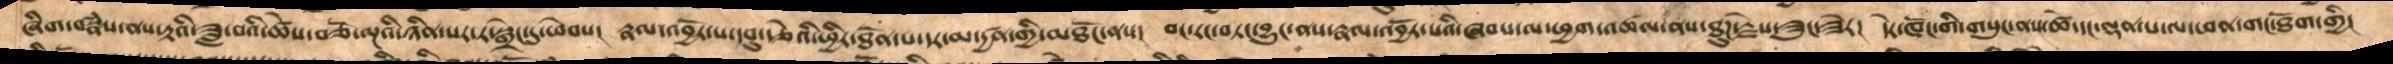ཞིག་བསྣཾས་ནས་རྟའི་ཟླ་བའི་ཚེས་བཅོ་ལྔའི་ཉིན་པར་ར་སྒྲེང་དུ་ཕེབས།  རྣལ་འབྱོར་པ་དབུ་རྩེའི་ཕྱིར་ཐོན་པ་དར་མ་དྱཚན་གྱི་མཐོང་ནས།  བང་རང་བཏང་བྱུང་ནས་རྣལ་འབྱོར་པའི་ཞབས་ལ་ཕྱག་འཚལ་ནས་ཐུཌ་རྗེས་ཟུང་ཟེར།  དེར་ཁོང་གི་གསུང་ནས་ཚེ་དང་ལྡན་པ་ལ་ཕན་གང་ཐོག་གྱི།
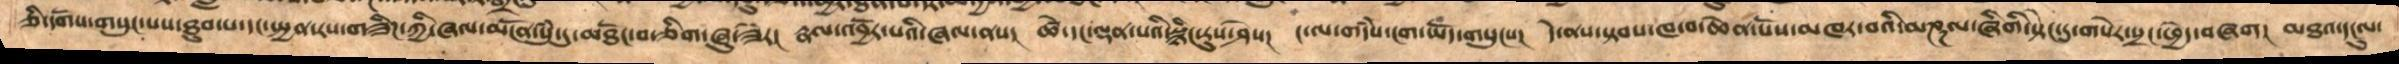ཅི་དགོས་གསུངས་པས་ཐུབ་པ་དང་སྤྱན་རས་གཟིཌ་ཀྱི་ཞལ་མངོན་སུཾ་དུ་མཐོང་བ་ཅིག་ཞུ་ཟེར།  རྣལ་འབྱོར་བའི་ཞལ་ནས།  ཚེ་དང་ལྡན་པའི་སྙིང་རུས་ཤེས།  ང་ལ་གདཾས་ངག་ཡོད་གསུངས།  དེ་ནས་སྟབས་ཁ་བ་ཆེན་པོས་མཁར་བའི་མཎྜལ་ཞིགི་སྟེང་དུ་གསེར་སྲང་ཕྱེད་བཞག།  མཐའ་དངུལ་
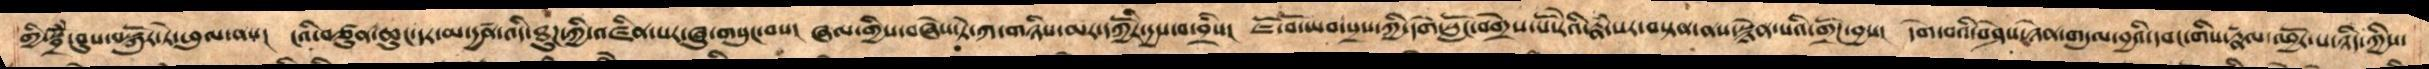གྱི་སྦྲོཾ་བུས་བསྐོུར་ཏེ་ཕུལ་ནས།  ངའི་བཙུན་ཆུང་དར་མ་དྱཚན་འདི་ཐུཌ་ཀྱི་འཛིན་པར་ཞུ་གསུང་བས།  ཞལ་གྱིས་བཞེས་ཏེ་ཀ་གཉིས་མར་དཀྱིོར་དྱས་བ་བྲིས།  ཇོ་བོ་ཡབ་སྲས་ཀྱི་དགེ་སློང་བགྲེས་པོ་རེའི་རྣཾ་པར་བསྟན་ནས་སྙེན་པའི་གྲོཌ་བྱས།  དགེ་བའི་བཤེས་ཉེན་གདུལ་བྱའི་དབང་གིས་རྣལ་འབྱོར་པ་ཉིད་ཀྱིས་
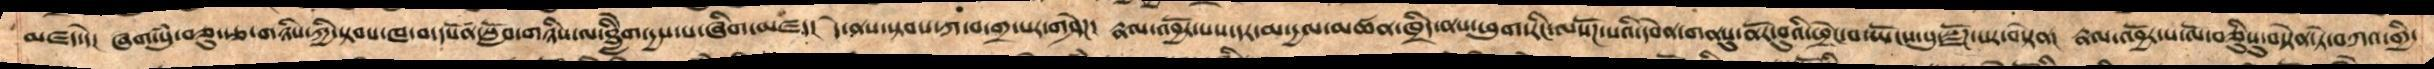མཛད་དེ།  ཞག་སུཾ་ཅུ་རྩ་གཉིས་ཀྱི་སྟབས་ཁ་བ་དཔོན་སློབ་གཉིས་ལ་ཐླིེག་དྱས་པ་ཞིག་མཛད།  དེ་ནས་སྟབས་ཀ་བ་གྲ་སར་གཤེཌ།  རྣལ་འབྱོར་པས་དར་མ་དྱལ་མཚན་ཁྲིད་ནས་ཕུག་རིང་ལསོཌ་པའི་དབེན་གནསུ་ནོར་བུའི་ཕྲེང་བ་ཡོངས་སུ་སྫོཌ་པར་བསྟན།  རྣལ་འབྱོར་པ་ལོ་བཅིུསུ་བསྟེན་ཏེ་བཀའ་གྱི་
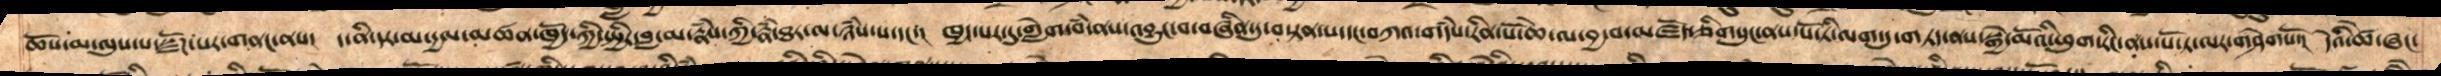ཆོས་མ་ལུས་པ་སྫོཌ་པར་གནང་ནས།  ད་ནི་དར་མ་དྱལ་མཚན་ཁྱོད་ཀྱི་སྤྱིར་བླ་མ་རྣཾས་ཀྱི་རྣཾ་ཐར་ལ་ཉཾས་པ་དང་།  ཁྱད་པར་དུ་གླེག་བཾ་ནས་འབྱུང་བ་བཞིན་དུ་བསྟན་པ་དང་བཀའ་གདཾས་རིན་པོ་ཆེ་ལ་བྱ་བ་མཛོད་ཅིགསུང་ནས་པོ་ཏི་ལག་དུ་གཏད་ནས་སྒྱེ་མོའི་ཕུག་རིང་ནས་པོ་ཏ་ལར་གཤེགསོ།  དེའི་ཚེ་ཞང་
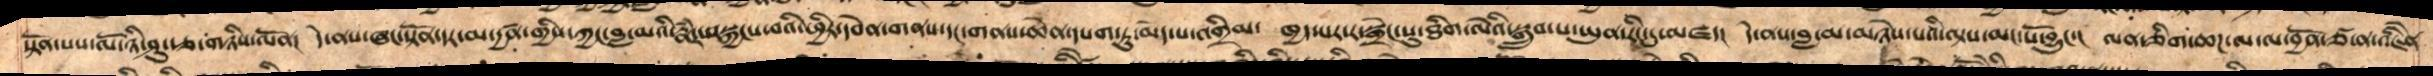སྟོན་པས་ལོ་ཉི་ཤུ་རྩ་གཉིས་ལོན།  དེ་ནས་ཞང་སྟོན་དར་མ་དྱཚན་གྱིས་ཀྱང་བླ་མའི་རྣཾར་སྐྱངས་བའི་ཕྱིར་དབེན་གནས་དང་གནས་ཆེན་དཔག་ཏུ་མེད་པ་འགྲིམ།  ཁྱད་པར་ར་སྒྲེང་སུ་ཐིག་ལེའི་སྒྲུབ་པ་ཡུན་རིང་དུ་མཛད།  དེ་ནས་་བླ་མ་མཉེས་པའི་ལྟས་མང་པོ་བྱུང་།  ལན་ཅིག་ཆཌ་ལ་ལ་བྱོན་ཙ་ན་འཇིནེ་
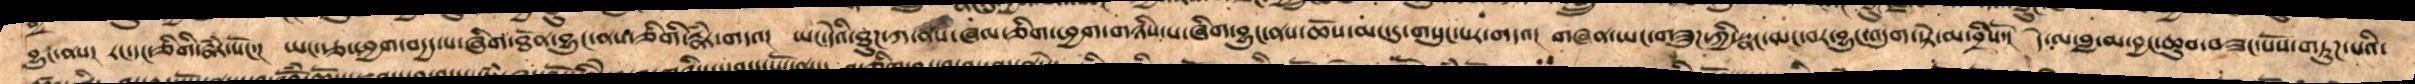བྱུང་ནས།  རང་དང་ཅིགི་རྣཾར་སོང་།  ཡང་རྩ་ཕྱག་བདྱད་པ་ཞིག་ཐོན་བྱུང་ནས་ཅིགི་རྣཾར་གདའ།  ཡང་དེའི་ཐུཌ་ཀ་ནས་ཞལ་ཅིག་ཕྱག་གཉིས་པ་ཞིག་བྱུང་ནས་ཆོས་མང་དུ་གསུང་པར་གདའ།  གཞན་ཡང་གཟུཌ་ཀྱིསྣང་མང་བར་བྱུང་འདུག་སྟེ་མ་བྲིསོ་།  དེ་ལ་བླ་མ་བྱང་ཆུབ་བཟང་པོས་གཏུཌ་པའི་
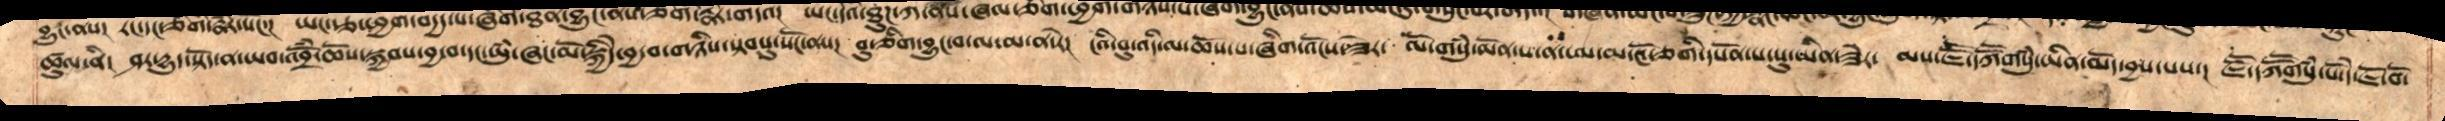ཚུལ་ནི། ཤར་དྱུད་སྟོད་ན་ཡབ་འབྲོཾ་ཆོས་སྐྱབས་བྱ་བ་དང་་ཡུཾ་ཞང་མོ་སྐྱིདེ་བྱ་བ་གཉིས་སྟབསུ་སོང་ནས། བུ་གཅིག་བྱུང་བ་ལ་མ་ན་རེ། ངའི་བུ་འདི་ལ་ཆོས་པ་ཞིག་འོང་ཟེར། ལོ་གསུཾ་ལོན་པ་ན་ཨ་མ་འོ་ཅགི་དཔོན་པོ་སུ་ཡིན་ཟེར། མས་ཇཽ་དཀཽགསུཾ་ཡིན་མོད་བྱས་པས། ཇཽ་དཀཽགསུཾ་པོ་དེ་ཇོ་བོ་
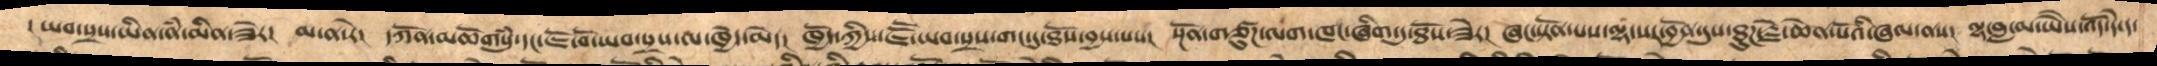་ཡབ་སྲས་ཡིན་ནཾ་མིན་ཟེར།  མ་ན་རེ།  དཀོན་མཆོགསུཾ་དང་ཇོ་བོ་ཡབ་སྲས་ལ་ཁྱེད་མེད།  ཁྱོད་ཀྱིས་ཇཽ་ཡབ་སྲས་གང་དུ་ཐོས་བྱས་པས།  སྔོན་གཙུཌ་ལཌ་ཁང་ཞིག་དུ་ཐོས་ཟེར།  ཞང་སྟོན་པས་ལྷ་སར་བྱོན་དུས་ཐུཌ་རྗེ་ཆེན་པོའི་ཞལ་ནས།  ལྷ་བླ་མ་ཡཻས་འོད་དེ་ད་
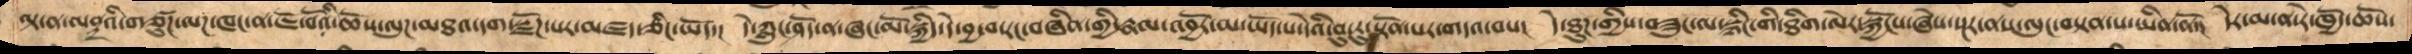ལྟ་ན་ལནྡྲའི་གཙུཌ་ལཌ་ཁང་ན་ཇོ་བོའི་ཆོས་ལུཌ་མཐའ་དག་སྫོཌ་པར་མཛད་ཅིང་ཡོད།  དེ་ཀླུང་ཤོང་ན་ཞང་མོ་སྐྱིད་དེ་བྱ་བ་རང་བཞིན་གྱི་རྣལ་འབྱོར་མ་ཡོད་པ་དེའི་བུ་རུ་སྟོན་པར་གདའ་བས།  དེ་ཐུཌ་གྱིས་བཟུང་ལ་སྙིང་གི་ཐིག་ལེར་སྐྱོངས་ཞེས་སྔར་ནས་ལུང་བསྟན་པ་ཡིན་ནོ།  དེར་མ་ན་རེ་ཁྱོད་ཆོས་
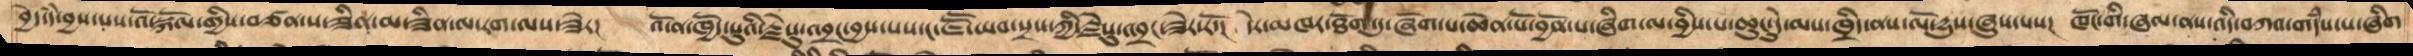བྱེད་དཾ་བྱས་པས་འོ་སྐོལ་གྱིས་བཙན་ས་ཟིན་མ་ཟིན་ལ་རག་ལས་ཟེར།  འོ་ན་ཁྱོད་སུའི་རྗེས་སུ་འབྲང་བྱས་པས་ང་ཇཽ་ཡབ་སྲས་ཀྱི་རྗེས་སུ་འབྲང་ཟེར་རོ།  དེར་མཁར་ཐོག་དུ་ཞོག་པ་ཆེན་པོ་བྱོན་པ་ཞིག་ལ་བྱིས་པ་ཆུངུ་དེ་ལས་ཁྲིད་ནས་ལོ་དྱུས་ཞུས་པས།  ཁོང་གི་ཞལ་ནས་འདི་བཀའ་གདཾས་པ་ཞིག་
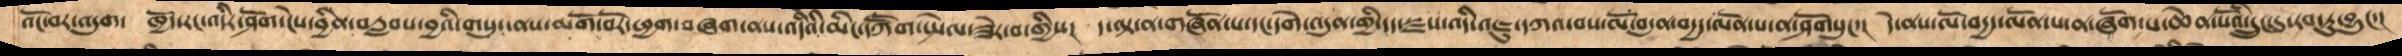འོང་བར་འདུག་  ཁྱོད་རང་འདིར་ཤོག་ངེས་བྱིན་བརླབས་བྱའི་གསུང་ནས་མགོ་བོར་ཕྱག་བཞག་ནས་འདིའི་མིང་དཀཽག་སྤེལ་ཟེར་བ་གྱིས།  ད་ལྟ་ན་གཞོན་པ་དང་དགེ་འདུན་གྱི་དད་སྫས་འདི་འཇུ་དཀའ་བས་ལོ་བདུན་བདྱད་ལོན་པ་ན་ཤོགསུངས།  དེ་ནས་ལོ་བདྱད་ལོན་པ་ན་ཞོག་པ་ཆེན་པོའི་དྲུང་དུ་རབ་ཏུ་བྱུང་།
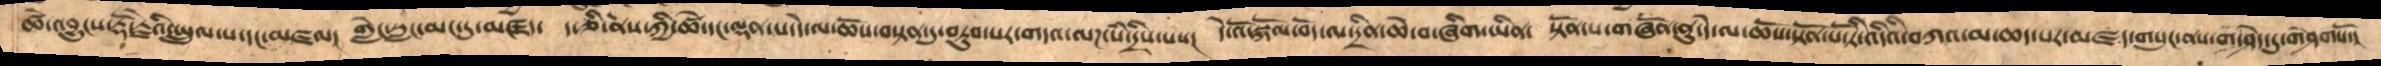ཚེ་འབྱུངས་རྡོ་རྗེའི་སྤྲུལ་པ་དང་མཇལ།  གླེང་སླང་མང་དུ་མཛད།  ད་ཅི་ནས་ཀྱི་ཚེ་དང་ལྡན་པ་དེ་ལ་ཆོས་བསྟན་དུ་བཏུབ་པར་གདའ་ལཌ་སཾ་དྲིས་པས།  དེ་འོ་སྐོལ་བོད་ལ་དྲིན་ཆེ་བ་ཞིག་ཡིན  སྟོན་པ་གཞོན་ནུ་དེ་ལ་ཆོས་སྟོན་པོ་ཏི་འདིའི་བཀའ་མ་ཆད་པར་མཛད་གསུང་ནས་ག་ཤེད་དུ་གཤེགསོ་།
